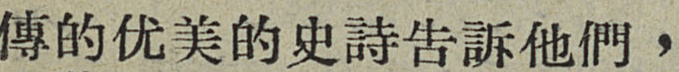傳的优美的史詩告訴他們，
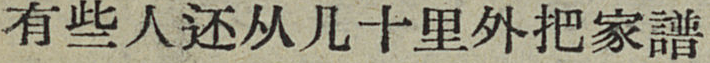有些人还从几十里外把家譜
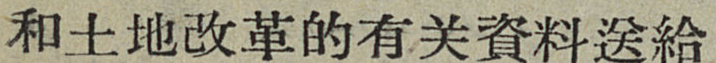和土地改革的有关資料送給
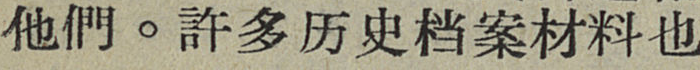他們。許多历史胆敢材料也
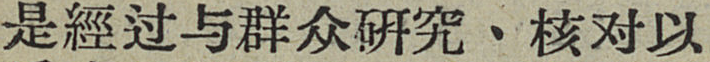是經过与群众研究、核对以
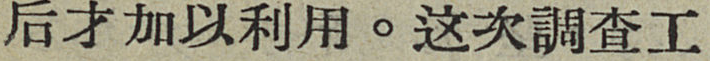后才加以利用。这次調查工
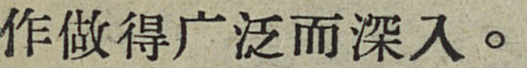作做得广泛而深入。
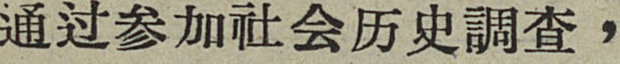通过参加社会历史調查，
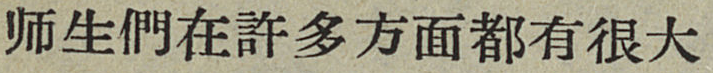师生們在許多方面都有很大
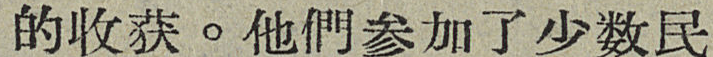的收获。他們参加了少数民
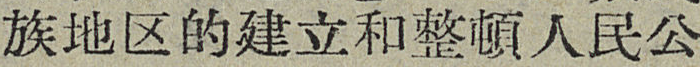族地区的建立和整頓人民公
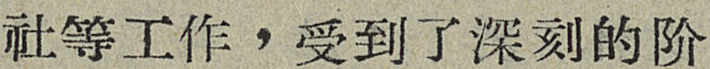社等工作，受到了深刻的阶
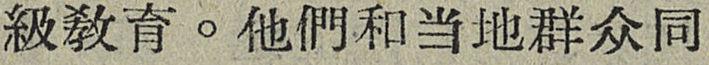級敎育。他們和当地群众同
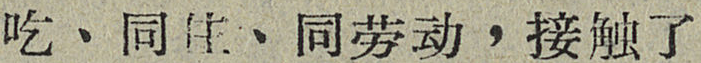吃、同住、同劳动，接触了
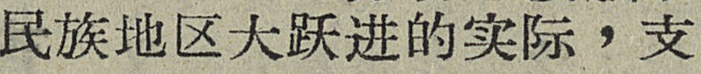民族地区大跃进的实际，支
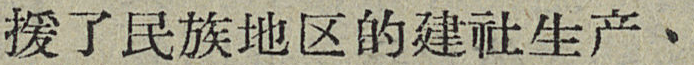援了民族地区的建社生产、
